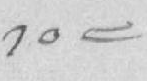༡༠༤
